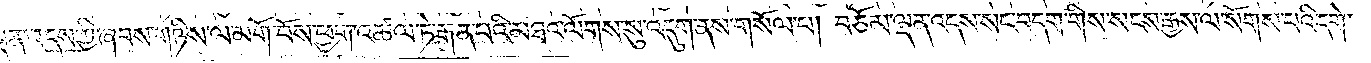ལྡན་འདས་ཀྱི་ཞབས་གཉིས་ལ་མགོ་བོས་ཕྱག་འཚལ་ཏེ་རྒན་པའི་མཐའ་ལོགས་སུ་འདུག་ནས་གསོལ་པ། བཅོམ་ལྡན་འདས་སང་བདག་གིས་སངས་རྒྱས་ལ་སོགས་པའི་དགེ་
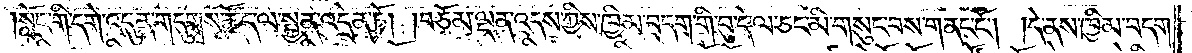སློང་གི་དགེ་འདུན་གདུགས་ཚོད་ལ་སྤྱན་འདྲེན་ཏོ། །བཅོམ་ལྡན་འདས་ཀྱིས་ཁྱིམ་བདག་གི་བུ་དེ་ལ་ཅང་མི་གསུང་བས་གནང་ངོ༌། །དེ་ནས་ཁྱིམ་བདག་
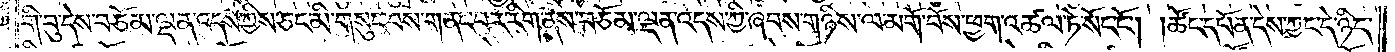གི་བུ་དེས་བཅོམ་ལྡན་འདས་ཀྱིས་ཅང་མི་གསུང་བས་གནང་བར་རིག་ནས་བཅོམ་ལྡན་འདས་ཀྱི་ཞབས་གཉིས་ལ་མགོ་བོས་ཕྱག་འཚལ་ཏེ་སོང་ངོ༌། །ཚོང་དཔོན་དེས་ཀྱང་དེ་ཉིད་
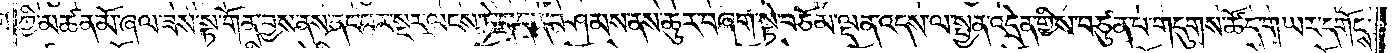ཀྱི་མཚན་མོ་ཞལ་ཟས་སྟ་གོན་བྱས་ནས་ནང་པར་སྔར་ལངས་ཏེ་གདན་བཤམས་ནས་ཆུར་བཞག་སྟེ་བཅོམ་ལྡན་འདས་ལ་སྤྱན་འདྲེན་གྱིས་བཙུན་པ་གདུགས་ཚོད་གཡར་དགོངས་
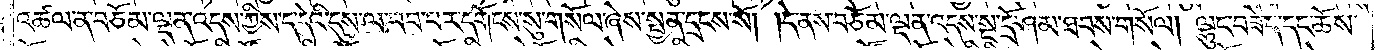འཚལ་ན་བཅོམ་ལྡན་འདས་ཀྱིས་ད་དེའི་དུས་ལ་བབ་པར་དགོངས་སུ་གསོལ་ཞེས་སྤྱན་དྲངས་སོ། །དེ་ནས་བཅོམ་ལྡན་འདས་སྔ་དྲོ་ཤམ་ཐབས་གསོལ། ལྷུང་བཟེད་དང་ཆོས་
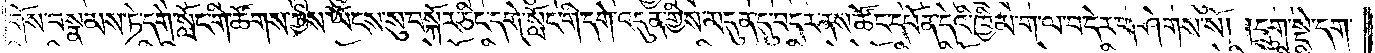གོས་བསྣམས་ཏེ་དགེ་སློང་གི་ཚོགས་ཀྱིས་ཡོངས་སུ་བསྐོར་ཅིང་དགེ་སློང་གི་དགེ་འདུན་གྱིས་མདུན་དུ་བདར་ནས་ཚོང་དཔོན་དེའི་ཁྱིམ་ག་ལ་བ་དེར་གཤེགས་སོ། །དྲུག་སྡེ་དག་
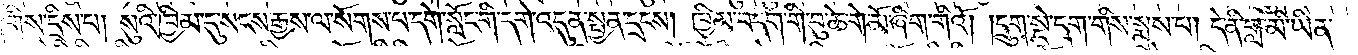གིས་དྲིས་པ། སུའི་ཁྱིམ་དུ་སངས་རྒྱས་ལ་སོགས་པ་དགེ་སློང་གི་དགེ་འདུན་སྤྱན་དྲངས། ཁྱིམ་བདག་གི་བུ་ཆེ་གེ་མོ་ཞིག་གིའོ། །དྲུག་སྡེ་དག་གིས་སྨྲས་པ། དེ་ནི་གླ་མི་ཡིན་
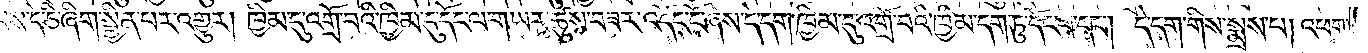པས་དེ་ཅི་ཞིག་སྦྱིན་པར་འགྱུར། ཁྱིམ་དུ་འགྲོ་བའི་ཁྱིམ་དུ་དོང་ལ་གཡར་ཚུས་བཟར་འདོང་ངོ་ཞེས་དེ་དག་ཁྱིམ་དུ་འགྲོ་བའི་ཁྱིམ་དག་ཏུ་དོང་བ་དང༌། དེ་དག་གིས་སྨྲས་པ། འཕགས་
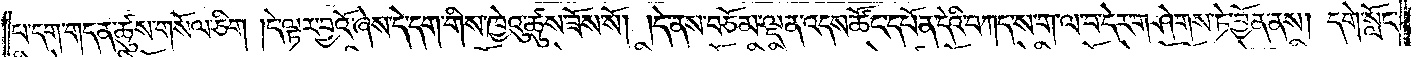པ་དག་གདན་ཚུས་གསོལ་ཅིག །དེ་ལྟར་བྱའོ་ཞེས་དེ་དག་གིས་ཁྱེའུ་ཚུས་ཟོས་སོ། །དེ་ནས་བཅོམ་ལྡན་འདས་ཚོང་དཔོན་དེའི་བཀད་ས་ག་ལ་བ་དེར་གཤེགས་ཏེ་བྱོན་ནས། དགེ་སློང་
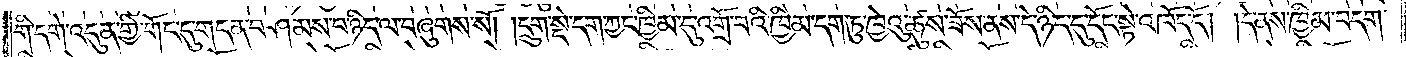གི་དགེ་འདུན་གྱི་གོང་དུ་གདན་བཤམས་པ་ཉིད་ལ་བཞུགས་སོ། །དྲུག་སྡེ་དག་ཀྱང་ཁྱིམ་དུ་འགྲོ་བའི་ཁྱིམ་དག་ཏུ་ཁྱེའུ་ཚུས་ཟོས་ནས་དེ་ཉིད་དུ་དོང་སྟེ་འཁོད་དོ། །དེ་ནས་ཁྱིམ་བདག་
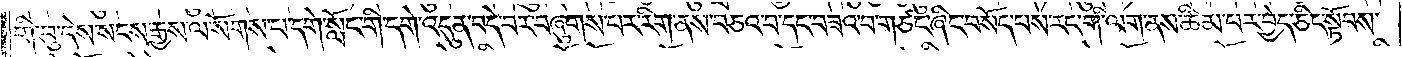གི་བུ་དེས་སངས་རྒྱས་ལ་སོགས་པ་དགེ་སློང་གི་དགེ་འདུན་བདེ་བར་བཞུགས་པར་རིག་ནས་བཅའ་བ་དང་བཟའ་བ་གཙང་ཞིང་བསོད་པས་རང་གི་ལག་ནས་ཚིམ་པར་བྱེད་ཅིང་སྟོབས་
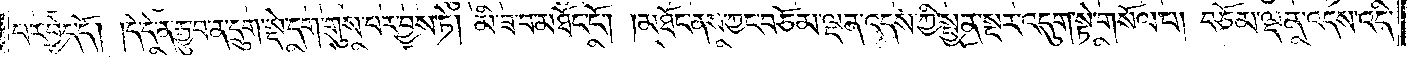པར་བྱེད་དོ། །དེ་དེ་ན་རྒྱུ་བ་ན་དྲུག་སྡེ་དག་གུས་པར་བྱས་ཏེ། མི་ཟ་བ་མཐོང་ངོ༌། །མཐོང་ནས་ཀྱང་བཅོམ་ལྡན་འདས་ཀྱི་སྤྱན་སྔར་འདུག་སྟེ་གསོལ་པ། བཅོམ་ལྡན་འདས་འདི་
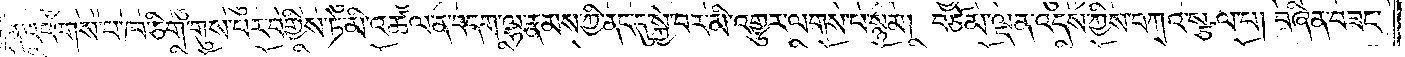ན་འཕགས་པ་ཁ་ཅིག་གུས་པར་བགྱིས་ཏེ་མི་འཚལ་ན་བདག་ལྷ་རྣམས་ཀྱི་ནང་དུ་སྐྱེ་བར་མི་འགྱུར་ལགས་པ་སྙམ། བཅོམ་ལྡན་འདས་ཀྱིས་བཀའ་སྩལ་པ། བཞིན་བཟང་
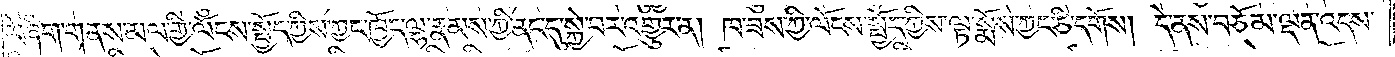རེ་ཞིག་གནས་མལ་གྱི་ལོངས་སྤྱོད་ཀྱིས་ཀྱང་ཁྱོད་ལྷ་རྣམས་ཀྱི་ནང་དུ་སྐྱེ་བར་འགྱུར་ན། ཁ་ཟས་ཀྱི་ལོངས་སྤྱོད་ཀྱིས་ལྟ་སྨོས་ཀྱང་ཅི་དགོས། དེ་ནས་བཅོམ་ལྡན་འདས་
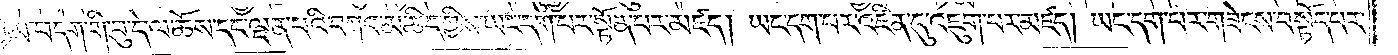ཁྱིམ་བདག་གི་བུ་དེ་ལ་ཆོས་དང་ལྡན་པའི་བཀའ་མཆིད་ཀྱིས་ཡང་དག་པར་སྟོན་པར་མཛད། ཡང་དག་པར་འཛིན་དུ་འཇུག་པར་མཛད། ཡང་དག་པར་གཟེངས་བསྟོད་པར་
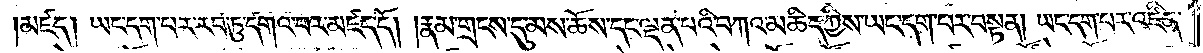མཛད། ཡང་དག་པར་རབ་ཏུ་དགའ་བར་མཛད་དོ། །རྣམ་གྲངས་དུ་མས་ཆོས་དང་ལྡན་པའི་བཀའ་མཆིད་ཀྱིས་ཡང་དག་པར་བསྟན། ཡང་དག་པར་འཛིན་
